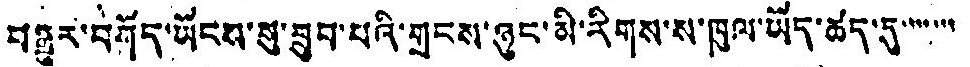བརྒྱུར་བགོད་ཡོངས་སུ་ཐྲུབ་པའི་གྲངས་ཉུང་མི་རིགས་ས་ཁུལ་ཡོད་ཚད་དུ་་་་་་་
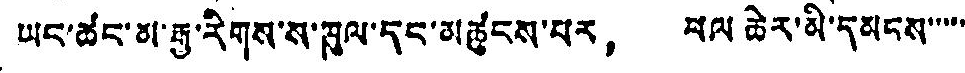ཡང་ཚང་མ་རྒྱ་རིགས་ས་ཁུལ་དང་མཚུངས་པར， ཕལ ཆེར་མི་དམངས་་་་་
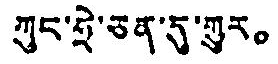ཀུང་ཧྲེ་ཅན་དུ་གྱུར。
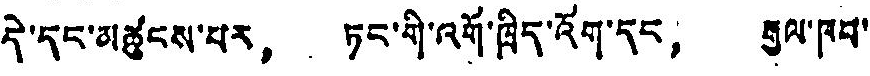དེ་དང་མཚུངས་པར， ཏང་གི་འགོ་ཁྲིད་འོག་དང， རྒྱལ་ཁབ་
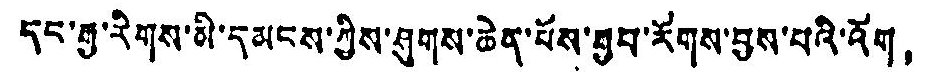དང་རྒྱ་རིགས་མི་དམངས་ཀྱིས་ཤུགས་ཆེན་པོས་གྲྱུབ་རོགས་བྱས་པའི་འོག，
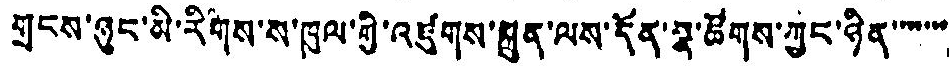གྲངས་ཉུང་མི་རིགས་ས་ཁུལ་གྱི་འཛུགས་སྐྲུན་ལས་དོན་སྣ་ཚོགས་ཀྱང་ཉིན་་་་་་་
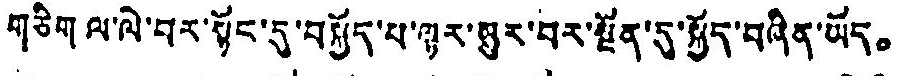གཅིག ལ་ལེ་བར་སྟོང་དུ་བསྐྱོད་པ་ལྟར་མྱུར་བར་སྔོན་དུ་སྐྱོད་བཞིན་ཡོད。
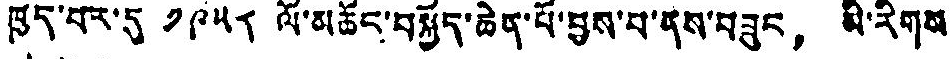ཁྱད་པར་དུ ༡༩༥༨ ལོ་མཆོང་བསྐྱོད་ཆེན་པོ་བྱས་པ་ནས་བཟུང， མི་རིགས་
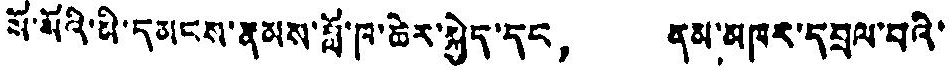སོ་སོའི་མི་དམངས་རྣམས་བློ་ཁ་ཆེར་སྐྱེད་དང， ནམ་མཁར་དབྲལ་བའི་
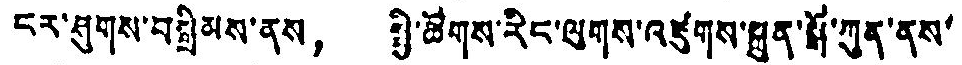ངར་ཤུགས་བསྒྲིམས་ནས， སྤྱི་ཚོགས་རིང་ལུགས་འཛུགས་སྐྲུན་སྒོ་ཀུན་ནས་
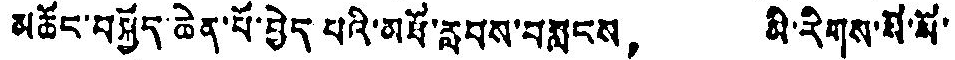མཆོང་བསྐྱོད་ཆེན་པོ་བྱེད པའི་མཐོ་རླབས་བསླངས， མི་རིགས་སོ་སོ་
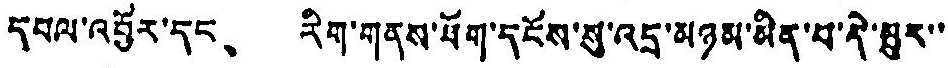དཔལ་འབྱོར་དང、 རིག་གནས་ཐོག་དངོས་སུ་འདྲ་མཉམ་མིན་པ་དེ་ཐུར་་
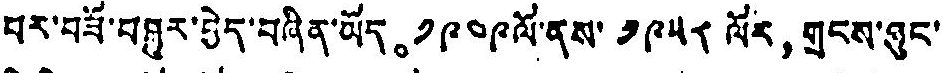པར་བཟོ་བསུར་བྱེད་བཞིན་ཡོད ༡༩༤༩ ལོ་ནས་ ༡༩༥༨ ལོར， གྲངས་ཉུང་
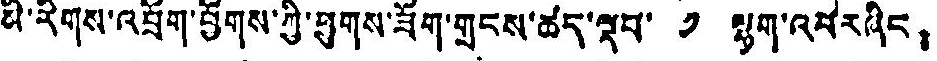མི་རིགས་འབྲོག་ཕྱོགས་ཀྱི་ཕྱུགས་ཟོག་གྲངས་ཚད་ལྡབ་ ༡ ལྷག་འབར ཞིང；
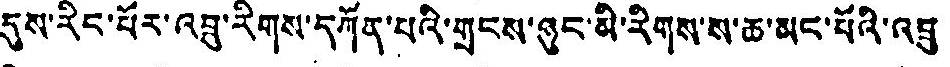དུས་རིང་པོར་འབྲུ་རིགས་དཀོན་པའི་གྲངས་ཉུང་མི་རིགས་ས་ཆ་མང་པོའི་འབྲུ་
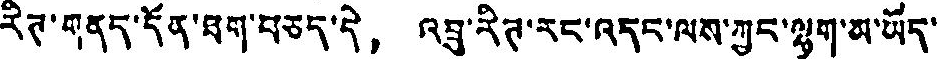རིཊ་གནད་དོན་ཐག་བཅད་དེ། འབྲུ་རིཊ་རང་འདང་ལས་ཀྱང་ལྷག་མ་ཡོད་
